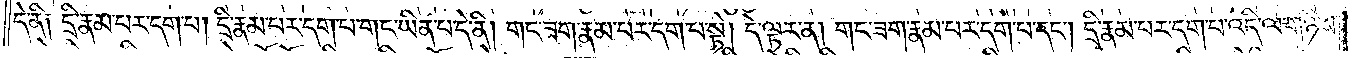དེ་ནི༑ དྲི་རྣམ་པར་དག་པ། དྲི་རྣམ་པར་དག་པ་གང་ཡིན་པ་དེ་ནི། གང་ཟག་རྣམ་པར་དག་པ་སྟེ། དེ་ལྟར་ན། གང་ཟག་རྣམ་པར་དག་པ་དང༌། དྲི་རྣམ་པར་དག་པ་འདི་ལ་གཉིས་
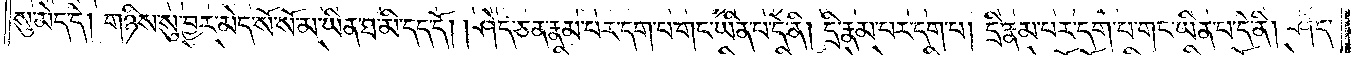སུ་མེད་དེ། གཉིས་སུ་བྱར་མེད་སོ་སོ་མ་ཡིན་ཐ་མི་དད་དོ། །ཤེད་ཅན་རྣམ་པར་དག་པ་གང་ཡིན་པ་དེ་ནི། དྲི་རྣམ་པར་དག་པ། དྲི་རྣམ་པར་དག་པ་གང་ཡིན་པ་དེ་ནི། ཤེད་
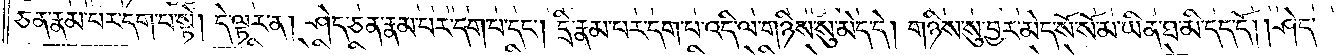ཅན་རྣམ་པར་དག་པ་སྟེ། དེ་ལྟར་ན། ཤེད་ཅན་རྣམ་པར་དག་པ་དང༌། དྲི་རྣམ་པར་དག་པ་འདི་ལ་གཉིས་སུ་མེད་དེ། གཉིས་སུ་བྱར་མེད་སོ་སོ་མ་ཡིན་ཐ་མི་དད་དོ། །ཤེད་
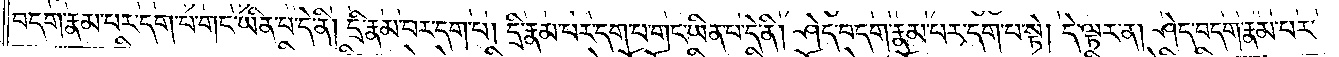བདག་རྣམ་པར་དག་པ་གང་ཡིན་པ་དེ་ནི། དྲི་རྣམ་པར་དག་པ། དྲི་རྣམ་པར་དག་པ་གང་ཡིན་པ་དེ་ནི། ཤེད་བདག་རྣམ་པར་དག་པ་སྟེ། དེ་ལྟར་ན། ཤེད་བདག་རྣམ་པར་
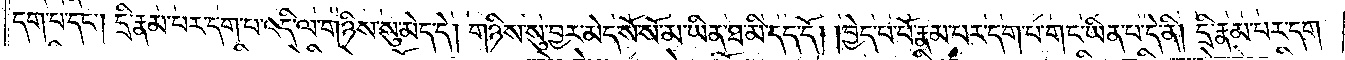དག་པ་དང༌། དྲི་རྣམ་པར་དག་པ་འདི་ལ་གཉིས་སུ་མེད་དེ། གཉིས་སུ་བྱར་མེད་སོ་སོ་མ་ཡིན་ཐ་མི་དད་དོ། །བྱེད་པ་པོ་རྣམ་པར་དག་པ་གང་ཡིན་པ་དེ་ནི། དྲི་རྣམ་པར་དག་
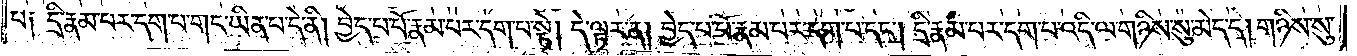པ༑ དྲི་རྣམ་པར་དག་པ་གང་ཡིན་པ་དེ་ནི། བྱེད་པ་པོ་རྣམ་པར་དག་པ་སྟེ། དེ་ལྟར་ན། བྱེད་པ་པོ་རྣམ་པར་དག་པ་དང༌། དྲི་རྣམ་པར་དག་པ་འདི་ལ་གཉིས་སུ་མེད་དེ། གཉིས་སུ་
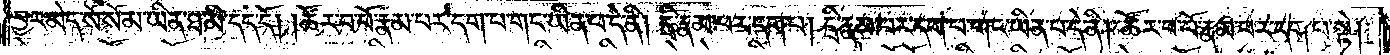བྱར་མེད་སོ་སོ་མ་ཡིན་ཐ་མི་དད་དོ། །ཚོར་བ་པོ་རྣམ་པར་དག་པ་གང་ཡིན་པ་དེ་ནི། དྲི་རྣམ་པར་དག་པ། དྲི་རྣམ་པར་དག་པ་གང་ཡིན་པ་དེ་ནི། ཚོར་བ་པོ་རྣམ་པར་དག་པ་སྟེ།
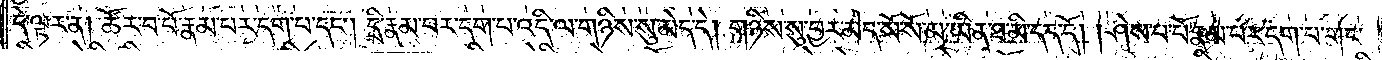དེ་ལྟར་ན། ཚོར་བ་པོ་རྣམ་པར་དག་པ་དང༌། དྲི་རྣམ་པར་དག་པ་འདི་ལ་གཉིས་སུ་མེད་དེ། གཉིས་སུ་བྱར་མེད་སོ་སོ་མ་ཡིན་ཐ་མི་དད་དོ། །ཤེས་པ་པོ་རྣམ་པར་དག་པ་གང་
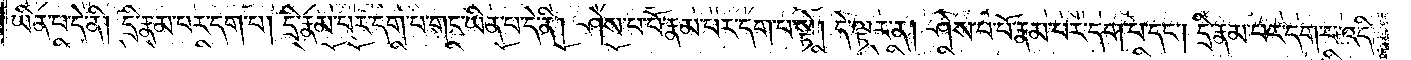ཡིན་པ་དེ་ནི། དྲི་རྣམ་པར་དག་པ། དྲི་རྣམ་པར་དག་པ་གང་ཡིན་པ་དེ་ནི། ཤེས་པ་པོ་རྣམ་པར་དག་པ་སྟེ། དེ་ལྟར་ན། ཤེས་པ་པོ་རྣམ་པར་དག་པ་དང༌། དྲི་རྣམ་པར་དག་པ་འདི་
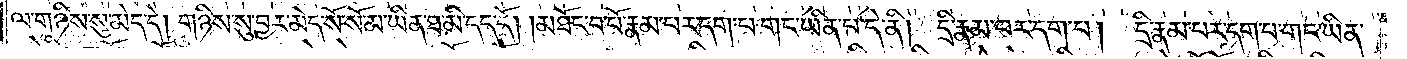ལ་གཉིས་སུ་མེད་དེ། གཉིས་སུ་བྱར་མེད་སོ་སོ་མ་ཡིན་ཐ་མི་དད་དོ། །མཐོང་བ་པོ་རྣམ་པར་དག་པ་གང་ཡིན་པ་དེ་ནི། དྲི་རྣམ་པར་དག་པ། དྲི་རྣམ་པར་དག་པ་གང་ཡིན་
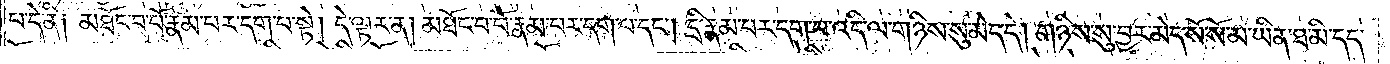པ་དེ་ནི༑ མཐོང་བ་པོ་རྣམ་པར་དག་པ་སྟེ། དེ་ལྟར་ན། མཐོང་བ་པོ་རྣམ་པར་དག་པ་དང༌། དྲི་རྣམ་པར་དག་པ་འདི་ལ་གཉིས་སུ་མེད་དེ། གཉིས་སུ་བྱར་མེད་སོ་སོ་མ་ཡིན་ཐ་མི་དད་
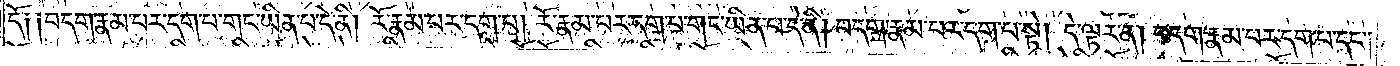དོ༑ ༑བདག་རྣམ་པར་དག་པ་གང་ཡིན་པ་དེ་ནི། རོ་རྣམ་པར་དག་པ། རོ་རྣམ་པར་དག་པ་གང་ཡིན་པ་དེ་ནི། བདག་རྣམ་པར་དག་པ་སྟེ། དེ་ལྟར་ན། བདག་རྣམ་པར་དག་པ་དང༌།
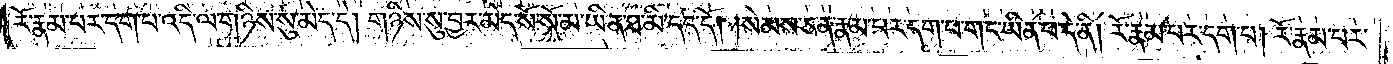རོ་རྣམ་པར་དག་པ་འདི་ལ་གཉིས་སུ་མེད་དེ། གཉིས་སུ་བྱར་མེད་སོ་སོ་མ་ཡིན་ཐ་མི་དད་དོ། །སེམས་ཅན་རྣམ་པར་དག་པ་གང་ཡིན་པ་དེ་ནི། རོ་རྣམ་པར་དག་པ། རོ་རྣམ་པར་
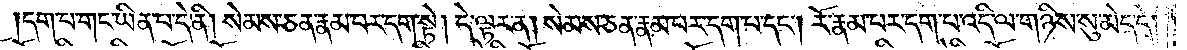དག་པ་གང་ཡིན་པ་དེ་ནི། སེམས་ཅན་རྣམ་པར་དག་སྟེ། དེ་ལྟར་ན། སེམས་ཅན་རྣམ་པར་དག་པ་དང༌། རོ་རྣམ་པར་དག་པ་འདི་ལ་གཉིས་སུ་མེད་དེ།
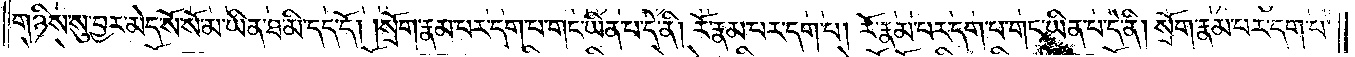གཉིས་སུ་བྱར་མེད་སོ་སོ་མ་ཡིན་ཐ་མི་དད་དོ། །སྲོག་རྣམ་པར་དག་པ་གང་ཡིན་པ་དེ་ནི། རོ་རྣམ་པར་དག་པ། རོ་རྣམ་པར་དག་པ་གང་ཡིན་པ་དེ་ནི། སྲོག་རྣམ་པར་དག་པ་
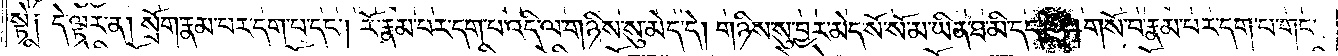སྟེ༑ དེ་ལྟར་ན། སྲོག་རྣམ་པར་དག་པ་དང༌། རོ་རྣམ་པར་དག་པ་འདི་ལ་གཉིས་སུ་མེད་དེ། གཉིས་སུ་བྱར་མེད་སོ་སོ་མ་ཡིན་ཐ་མི་དད་དོ། །གསོ་བ་རྣམ་པར་དག་པ་གང་
